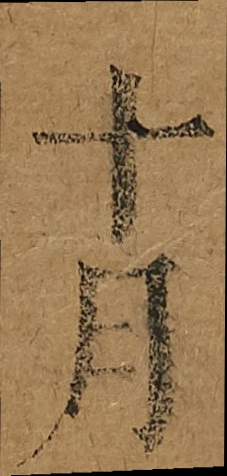十月
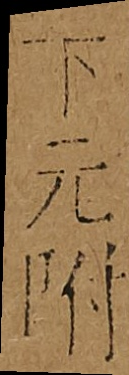下元附
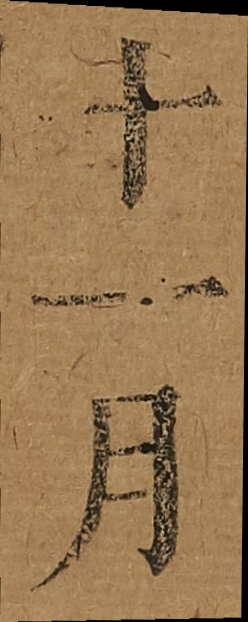十一月
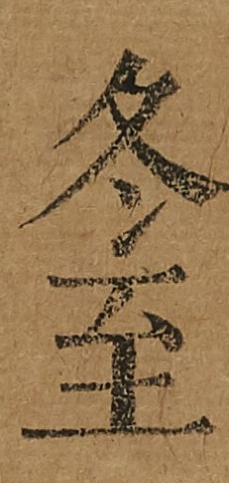冬至
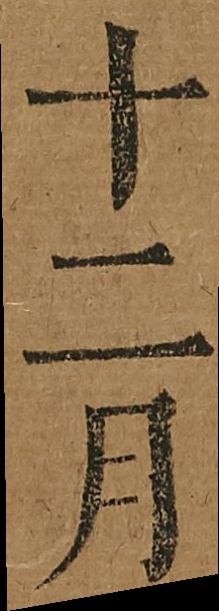十二月
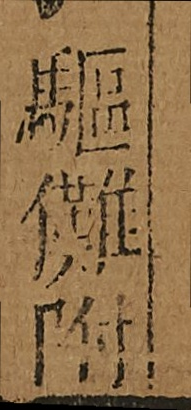驅儺附
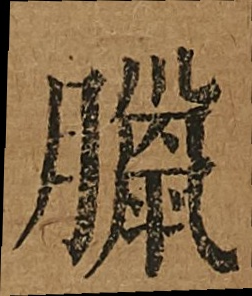臘
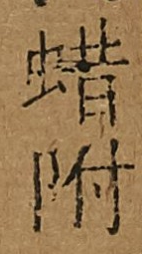蠟附
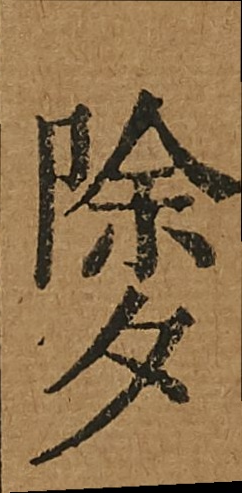除夕
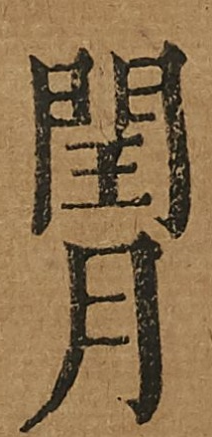閏月
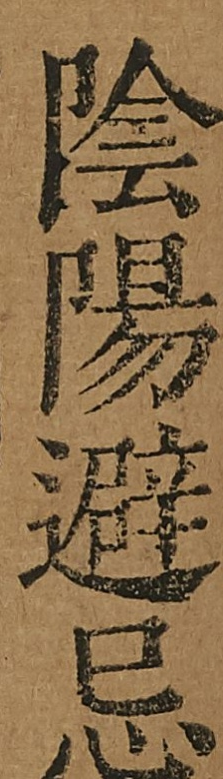陰陽避忌
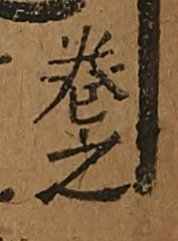卷之
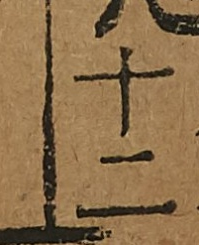十二
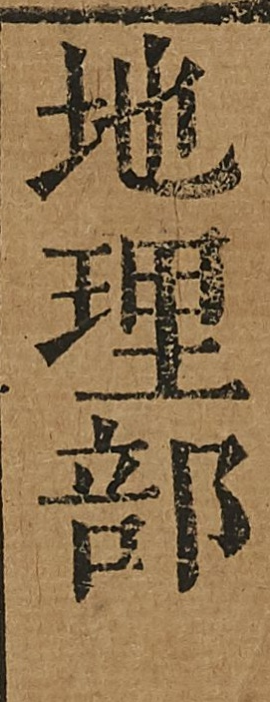地理部
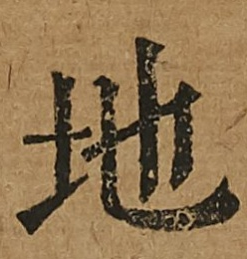地
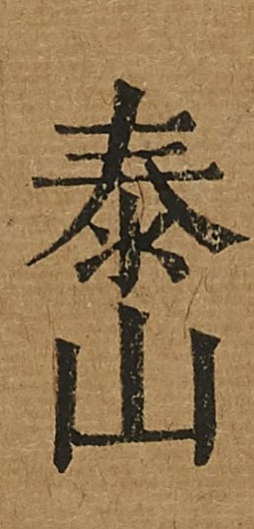泰山
